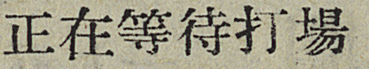正在等待打場
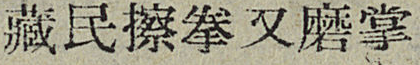藏民擦拳又磨掌
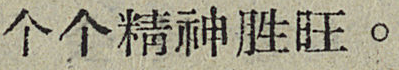个个精神胜旺。
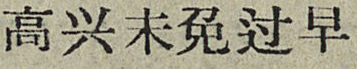高兴未免过早
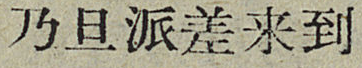乃旦派差来到
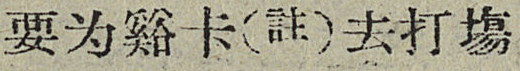要为谿卡（註）去打塲
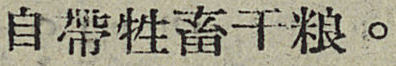自帶牲畜干粮。
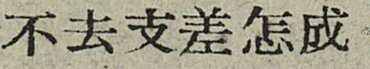不去支差怎成
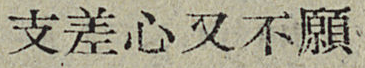支差心又不願
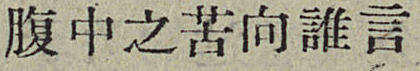腹中之苦向誰言
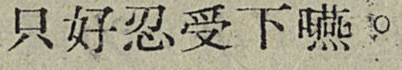只好忍受下嚥。
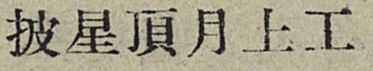披星頂月上工
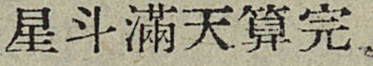星斗滿天算完
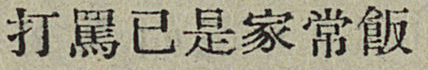打罵已是家常飯
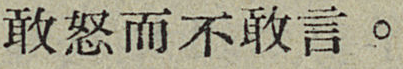敢怒而不敢言。
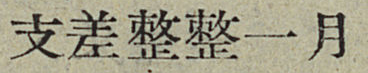支差整整一月
